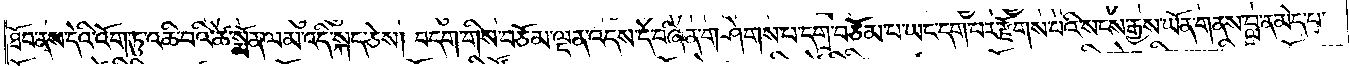ཐོབ་ནས་དེའི་འོག་ཏུ་འཆི་བའི་ཚེ་སྨོན་ལམ་འདི་སྐད་ཅེས། བདག་གིས་བཅོམ་ལྡན་འདས་དེ་བཞིན་གཤེགས་པ་དགྲ་བཅོམ་པ་ཡང་དག་པར་རྫོགས་པའི་སངས་རྒྱས་ཡོན་གནས་བླ་ན་མེད་པ་
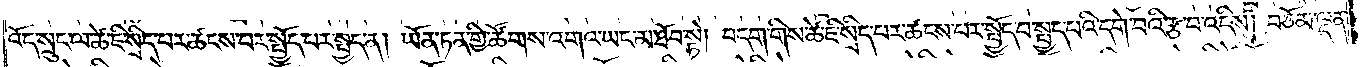འོད་སྲུང་ལ་ཚེ་ཇི་སྲིད་པར་ཚངས་པར་སྤྱོད་པར་སྤྱད་ན། ཡོན་ཏན་གྱི་ཚོགས་འགའ་ཡང་མ་ཐོབ་སྟེ། བདག་གིས་ཚེ་ཇི་སྲིད་པར་ཚངས་པར་སྤྱོད་པ་སྤྱད་པའི་དགེ་བའི་རྩ་བ་འདིས། བཅོམ་ལྡན་
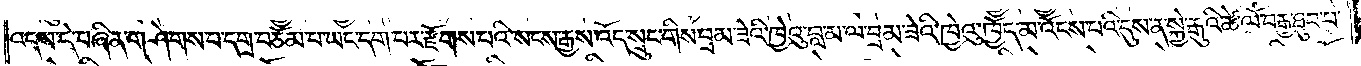འདས་དེ་བཞིན་གཤེགས་པ་དགྲ་བཅོམ་པ་ཡང་དག་པར་རྫོགས་པའི་སངས་རྒྱས་འོད་སྲུང་གིས་བྲམ་ཟེའི་ཁྱེའུ་བླ་མ་ལ་བྲམ་ཟེའི་ཁྱེའུ་ཁྱོད་མ་འོངས་པའི་དུས་ན་སྐྱེ་རྒུའི་ཚེ་ལོ་བརྒྱ་ཐུབ་པ་
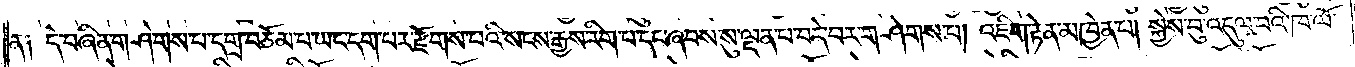ན། དེ་བཞིན་གཤེགས་པ་དགྲ་བཅོམ་པ་ཡང་དག་པར་རྫོགས་པའི་སངས་རྒྱས་རིག་པ་དང་ཞབས་སུ་ལྡན་པ་བདེ་བར་གཤེགས་པ། འཇིག་རྟེན་མཁྱེན་པ། སྐྱེས་བུ་འདུལ་བའི་ཁ་ལོ་
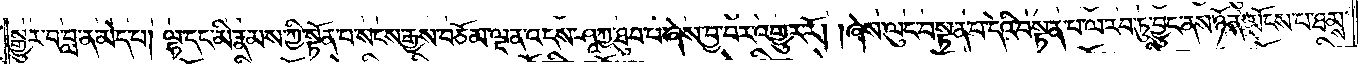སྒྱུར་བ་བླ་ན་མེད་པ། ལྷ་དང་མི་རྣམས་ཀྱི་སྟོན་པ་སངས་རྒྱས་བཅོམ་ལྡན་འདས་ཤཱཀྱ་ཐུབ་པ་ཞེས་བྱ་བར་འགྱུར་རོ། །ཞེས་ལུང་བསྟན་པ་དེའི་བསྟན་པ་ལ་རབ་ཏུ་བྱུང་ནས་ཉོན་མོངས་པ་ཐམས་
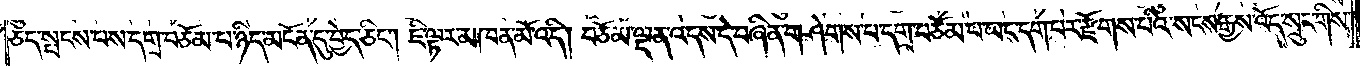ཅད་སྤངས་པས་དགྲ་བཅོམ་པ་ཉིད་མངོན་དུ་བྱེད་ཅིང༌། ཇི་ལྟར་མཁན་མོ་འདི། བཅོམ་ལྡན་འདས་དེ་བཞིན་གཤེགས་པ་དགྲ་བཅོམ་པ་ཡང་དག་པར་རྫོགས་པའི་སངས་རྒྱས་འོད་སྲུང་གིས་
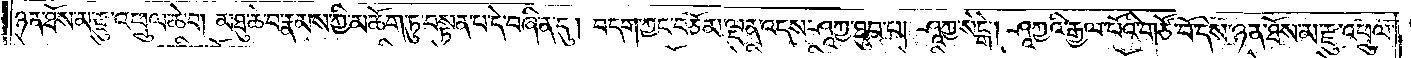ཉན་ཐོས་མ་རྫུ་འཕྲུལ་ཆེ་བ། མཐུ་ཆེ་བ་རྣམས་ཀྱི་མཆོག་ཏུ་བསྟན་པ་དེ་བཞིན་དུ། བདག་ཀྱང་བཅོམ་ལྡན་འདས་ཤཱཀྱ་ཐུབ་པ། ཤཱཀྱ་སེངྒེ། ཤཱཀྱའི་རྒྱལ་པོའི་གཙོ་བོ་དེས་ཉན་ཐོས་མ་རྫུ་འཕྲུལ་
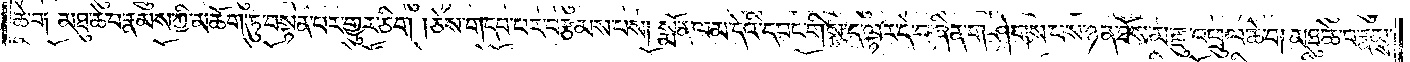ཆེ་བ། མཐུ་ཆེ་བ་རྣམས་ཀྱི་མཆོག་ཏུ་བསྟན་པར་གྱུར་ཅིག །ཅེས་གདབ་པར་བརྩམས་པས། སྨོན་ལམ་དེའི་དབང་གིས་ད་ལྟར་དེ་བཞིན་གཤེགས་པས་ཉན་ཐོས་མ་རྫུ་འཕྲུལ་ཆེ་བ། མཐུ་ཆེ་བ་རྣམས་
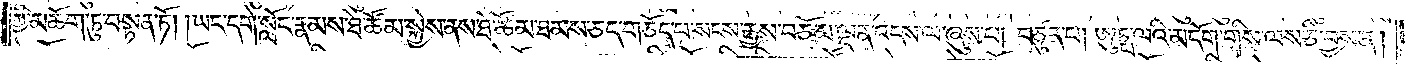ཀྱི་མཆོག་ཏུ་བསྟན་ཏོ། །ཡང་དགེ་སློང་རྣམས་ཐེ་ཚོམ་སྐྱེས་ནས་ཐེ་ཚོམ་ཐམས་ཅད་གཅོད་པ་སངས་རྒྱས་བཅོམ་ལྡན་འདས་ལ་ཞུས་པ། བཙུན་པ། ཨུཏྤ་ལའི་མདོག་གིས་ལས་ཅི་བྱས་ན།
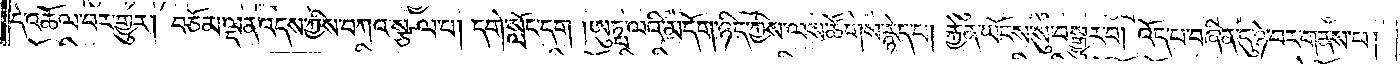དེ་འཆོལ་བར་གྱུར། བཅོམ་ལྡན་འདས་ཀྱིས་བཀའ་སྩལ་པ། དགེ་སློང་དག །ཨུཏྤ་ལའི་མདོག་ཉིད་ཀྱིས་ལས་ཚོགས་རྙེད་པ། རྐྱེན་ཡོངས་སུ་བསྒྱུར་བ། འོད་པ་བཞིན་དུ་ཉེ་བར་གནས་པ།
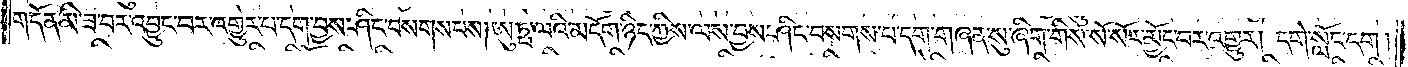གདོན་མི་ཟ་བར་འབྱུང་བར་འགྱུར་པ་དག་བྱས་ཤིང་བསགས་པས། ཨུཏྤ་ལའི་མདོག་ཉིད་ཀྱིས་ལས་བྱས་ཤིང་བསགས་པ་དག་གཞན་སུ་ཞིག་གིས་སོ་སོར་མྱོང་བར་འགྱུར། དགེ་སློང་དག །
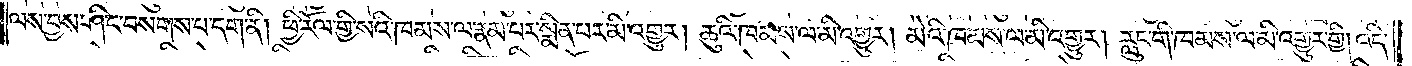ལས་བྱས་ཤིང་བསགས་པ་དག་ནི། ཕྱི་རོལ་གྱི་སའི་ཁམས་ལ་རྣམ་པར་སྨིན་པར་མི་འགྱུར། ཆུའི་ཁམས་ལ་མི་འགྱུར། མེའི་ཁམས་ལ་མི་འགྱུར། རླུང་གི་ཁམས་ལ་མི་འགྱུར་གྱི། འདི་
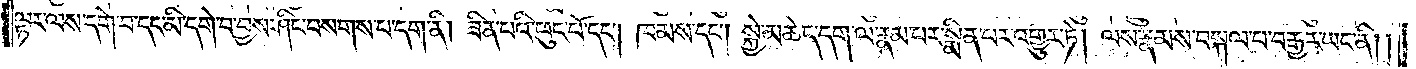ལྟར་ལས་དགེ་བ་དང་མི་དགེ་བ་བྱས་ཤིང་བསགས་པ་དག་ནི། ཟིན་པའི་ཕུང་པོ་དང༌། ཁམས་དང༌། སྐྱེ་མཆེད་དག་ལ་རྣམ་པར་སྨིན་པར་འགྱུར་ཏེ། ལས་རྣམས་བསྐལ་པ་བརྒྱར་ཡང་ནི། །
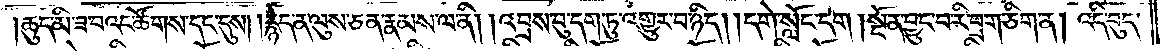ཆུད་མི་ཟ་བའང་ཚོགས་དང་དུས། །རྙེད་ན་ལུས་ཅན་རྣམས་ལ་ནི། །འབྲས་བུ་དག་ཏུ་འགྱུར་བ་ཉིད། །དགེ་སློང་དག །སྔོན་བྱུང་བ་རི་བྲག་ཅིག་ན། འདི་བུད་
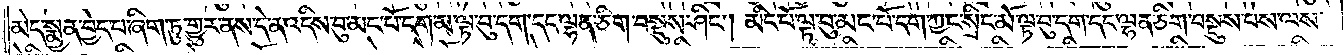མེད་སྨྱན་བྱེད་པ་ཞིག་ཏུ་གྱུར་ནས་དེ་ན་འདིས་བུ་མང་པོ་དག་མ་ལྟ་བུ་དག་དང་ལྷན་ཅིག་བསྡུས་ཤིང༌། མིང་པོ་ལྟ་བུ་མང་པོ་དག་ཀྱང་སྲིང་མོ་ལྟ་བུ་དག་དང་ལྷན་ཅིག་བསྡུས་པས་ལས་
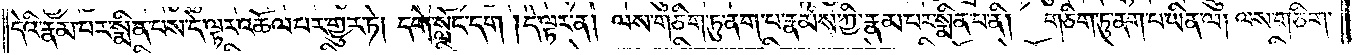དེའི་རྣམ་པར་སྨིན་པས་དེ་ལྟར་འཆོལ་བར་གྱུར་ཏེ། དགེ་སློང་དག །དེ་ལྟར་ན། ལས་གཅིག་ཏུ་ན་ག་པ་རྣམས་ཀྱི་རྣམ་པར་སྨིན་པ་ནི། གཅིག་ཏུ་ནག་པ་ཡིན་ལ། ལས་གཅིག་
